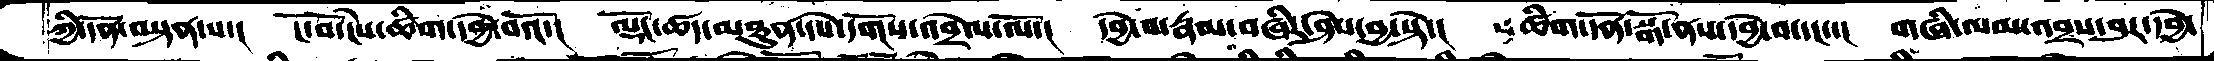ཀྱི་དོན་བསྟན་པ་།  ངོ་བོ་ངེས་ཚིག་དབྱེ་བའོ་།  ལྡོང་ཚད་མཐུན་དཔེ་དགོས་འབྲེལ་ལོ་།  དབྱེ་བ་རྣམ་བཞིར་ཤེས་བྱ་སྟེ་།  ཚིག་དོན་སྒོ་ནས་དབྱེ་བ་དང་་།  གཞི་ལམ་འབྲས་བུར་དབྱེ་
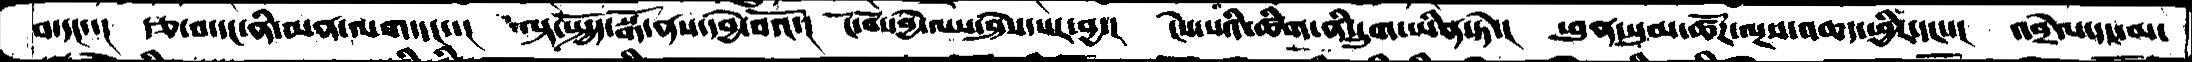བ་དང་་།  རྩ་བ་དང་ནི་ཡན་ལག་དང་་།  ལྟ་སྤྱོད་སྒོ་ནས་དབྱེ་བའོ་།  ངོ་བོ་དབྱེ་ལས་ཤེས་པར་བྱ་།  ངེས་པའི་ཚིག་ནི་དྲུག་ཡིན་ཏེ་།  ཕུན་སུམ་ཚོཌ་ལྔས་འཆད་ཕྱིར་དང་་།  འབྲེལ་དང་མ་
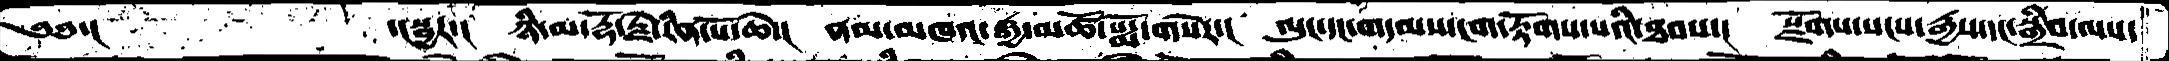༄༅་།          ་།སྦྱར་།  ཉི་མ་རྡོ་རྗེ་རིན་པོ་ཆེ་།  ནམ་མཁའ་རྒྱ་མཚོ་པདྨོ་གསེར་།  ལུང་དང་གདམས་ངག་རྟོགས་པའི་ཐབས་།  སྫོགས་སངས་རྒྱས་དང་སྒྲིབ་ལས་
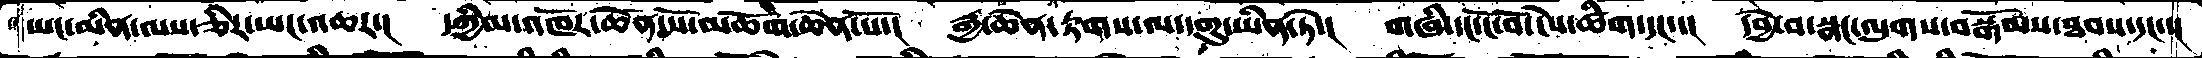ཡང་མིན་ལས་ཅིར་ཡང་འཆར་།  དཀྱིལ་འཁོར་ཆེན་པོ་མཆོག་ཆེན་པོ་།  རྒྱ་ཆེན་རྟགས་ལ་དགུ་ཡིན་ཏེ་།  གཞི་དང་ངོ་བོ་ངེས་ཚིག་དང་་།  དབྱེ་བ་སྣང་ལུགས་བསྒོམས་ཐབས་དང་་།
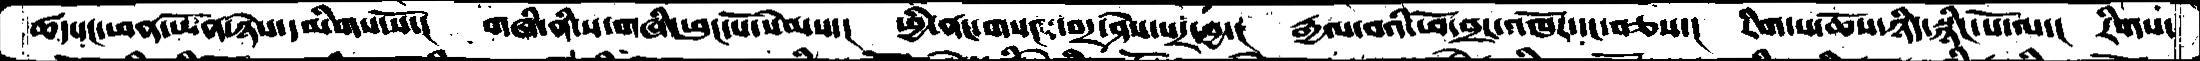ཚད་དང་ཕན་ཡོན་ཉེས་དམིགས་སོ་།  གཞི་ནི་ས་གཞི་ཕུང་པོ་སེམས་།  ཕྱི་ནང་གསང་བར་ཤེས་པར་བྱ་།  རྒྱལ་བའི་ཕོ་བྲང་འཁོར་དང་བཅས་།  རིག་པ་ཆོས་ཉིད་སྙིང་པོ་ལ་།  རིགས་
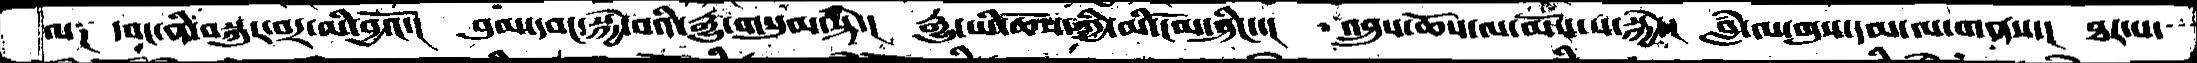ལ༑  དབང་ནི་བསྐུར་བར་མི་བྱའོ་།  བུམ་དབང་སྐྱེ་བའི་རྒྱུ་གསུམ་སྟེ་།  རྒྱུ་ཡི་ཆོས་ཀྱི་མི་ངོམ་ཤིང་་།  འབྲུས་ཆོས་ལ་མོས་པ་སྐྱེ་།  བླཾ་ལ་གུས་དམ་ལ་གནས་།  ཐར་པ་
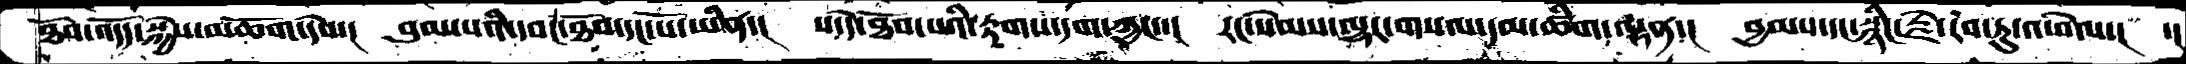ཐོབ་འདོད་སྐྱེས་མཆོག་དེས་།  བུམ་པའི་དབང་ཐོབ་དང་པོ་ཡིན་།  ས་དེ་ཐོབ་པའི་རྟགས་དག་ཀྱང་་།  རང་སེམས་ལྷང་གསལ་དམ་ཚིག་ལྡན་།  བྱམས་དང་སྙིང་རྗེ་རབ་ཏུ་འཕེལ་།  ་།
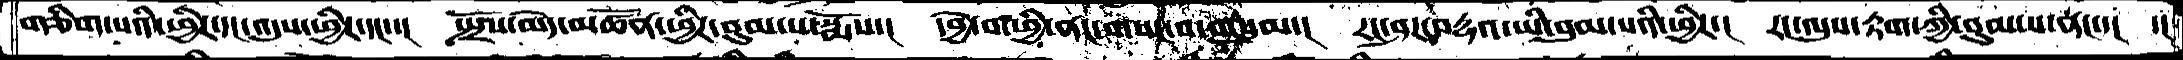གཅིག་པའི་ཕྱིར་དང་འདུས་ཕྱིར་དང་་།  སྤྲོས་མེད་མཚོན་ཕྱིར་བུམ་པ་སྨོས་།  དབྱེ་བ་ཕྱི་ནང་གསང་བ་གསུམ་།  རང་ཤར་བརྡའ་ཡི་བུམ་པའི་ཕྱིར་།  རང་ལུས་རྟག་ཀྱི་བུམ་པ་ནང་་།  ་།
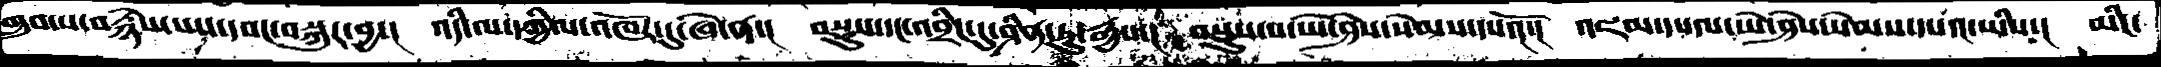གྲུབ་པ་བརྙེས་པས་དབང་བསྐུར་བྱ་།  འདི་ལ་དཀྱིལ་འཁོར་དུ་ཞེ་ན་།  བསྡུས་དང་འབྲིང་དུ་ཤིན་ཏུ་རྒྱས་།  བསྡུས་པ་ཡེ་ཤེས་སེམས་དཔའོ་།  འཇམ་དཔལ་ཡེ་ཤེས་སེམས་དཔའ་ཡིས་།  མིང་
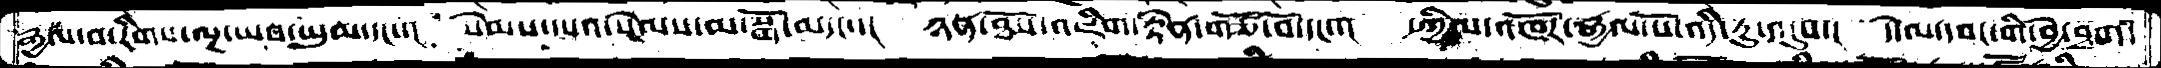རྒྱལ་བ་རིགས་ལྔ་ཡབ་ཡུམ་དང་་།  སེམས་དཔའ་སེམས་མ་སྒོ་མདང་་།  ཉན་ཐོས་འཇིག་རྟེན་གཙོ་བོ་དང་་།  དཀྱིལ་འཁོར་རྒྱལ་པོ་འདི་རུ་འདུས་།  དེ་ལ་དབང་གི་བྱེ་བྲག་
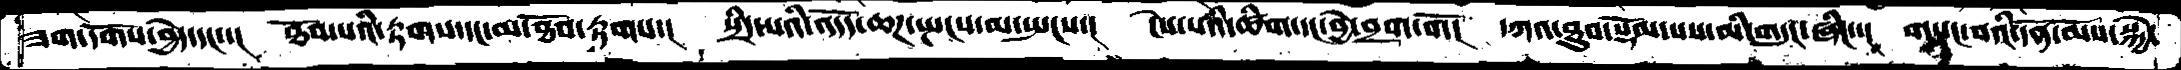ཟག་དགོས་བྱེད་དང་་། ཐོབ་པའི་རྟགས་དང་མ་ཐོབ་རྟགས་།  སྲིད་པའི་འདོད་ཆཌ་སྤངས་མ་སྤངས་།  ངེས་པའི་ཚིག་དང་བྱེ་བྲག་གོ།  དཀའ་ཐུབ་སྡོམ་པས་མི་གདུང་ཞིང་་།  གསང་བའི་དོན་མོས་སྐྱེ་
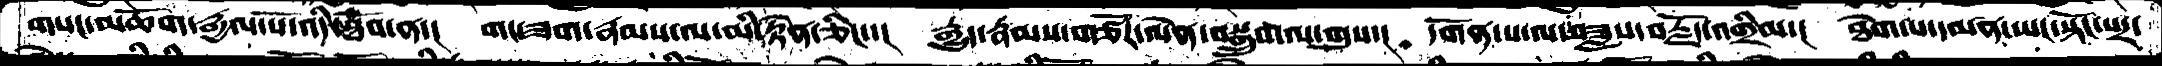གསང་མཆོག་རྒྱལ་པོ་འདི་ཐོབ་ན་།  གང་ཟག་རྣམས་ལ་མི་རྟེན་ཅིང་་།  རྒྱུད་རྣམས་གཙོར་ལེན་བསྒྲུབ་ལ་གུས་།  དགོན་པ་ལ་བཟླས་བརྗོད་འགྲིམ་།  ཐེག་པ་དམན་ཡང་སྟོང་པར་
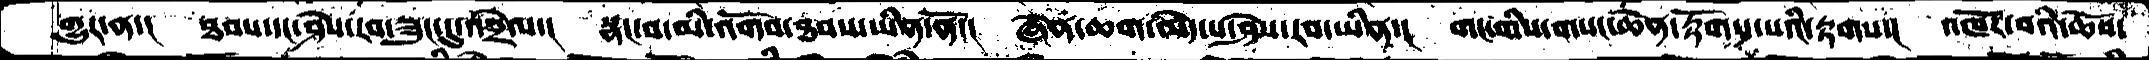གྱུར་ན་།  ཐབས་དང་ཤེས་རབ་ཟུང་དུ་འབྲེལ་།  སྣང་བ་མི་འགོབ་ཐབས་ཡིན་ནོ་།  ཞེན་ཆག་མེད་པ་ཤེས་རབ་ཡིན་།  གང་གིས་གསང་ཆེན་རྟོགས་པའི་རྟགས་།  འཁོར་བའི་ཆོས་
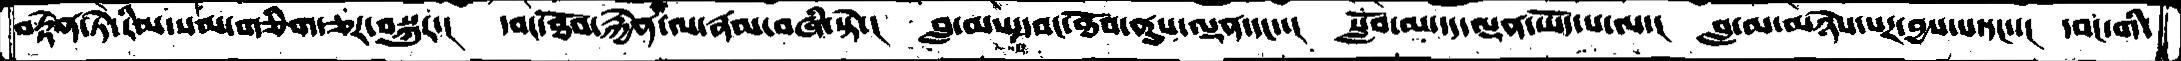བརྟེན་ཏེ་རིམ་སམ་གཅིག་ཅར་བསྐུར་།  དབང་ཐོབ་རྐྱེན་ལ་རྣམ་བཞི་སྟེ་།  བླ་མ་དབང་ཐོབ་ནུས་ལྡན་དང་་།  སློབ་མ་དད་ལྡན་ཡོད་པ་ལ་།  བླ་མ་མཉེས་པར་བྱས་པ་དང་་།  དབང་གི་
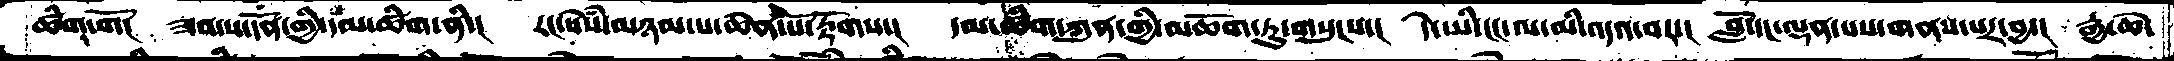ཚིག་གོ།  ཟབ་པ་དོན་གྱི་དམ་ཚིག་ནི་།  རང་སེཾས་མཉམ་པ་ཆེན་པོ་རྟོགས་།  དམ་ཚིག་ཀུན་གྱི་མཆོག་ཏུ་གསུངས་།  དེ་ཡི་ངང་ལ་མི་འདའ་བར་།  བློ་དང་ལྡན་པས་གནས་པར་བྱ་།  རྒྱ་ཆེ་
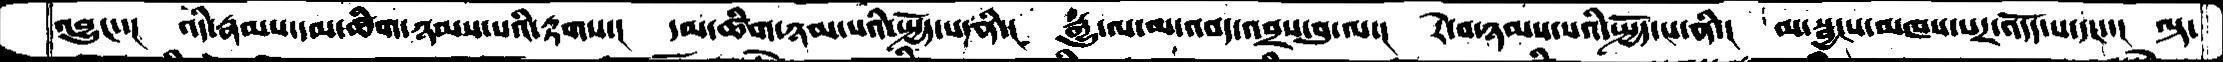འབྱུང་་།  འདི་རྣམས་དམ་ཚིག་ཉམས་པའི་རྟགས་།  དམ་ཚིག་ཉམས་པའི་སྤྱོད་པ་ནི་།  རྒྱུ་ལ་མ་འབད་འབྲས་བུ་ལ་།  རེ་བ་ཉམས་པའི་སྤྱོད་པ་ནི་།  མ་སྦྱངས་མཁས་་པར་འདོད་པ་དང་་། ལྟ་
